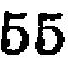55
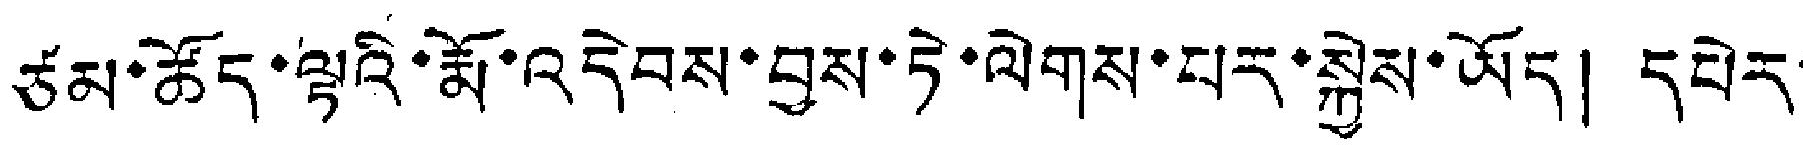ཙམ་ཚོད་ལྟའི་རྨོ་འདེབས་བྱས་ཏེ་ལེགས་པར་སྐྱེས་ཡོད། དཔེར་
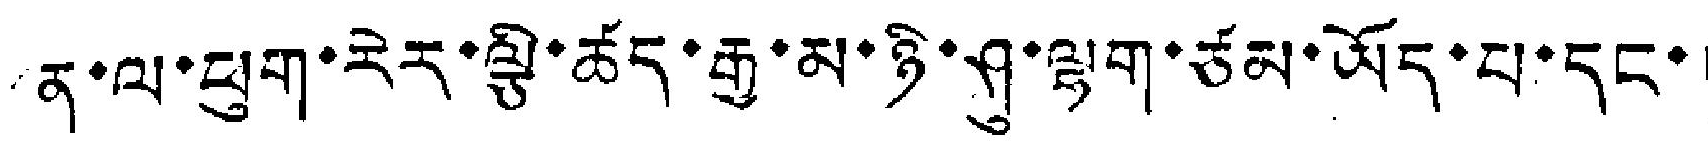ན་ལ་ཕུག་རེར་ལྕི་ཚད་རྒྱ་མ་ཉི་ཤུ་ལྷག་ཙམ་ཡོད་པ་དང་།
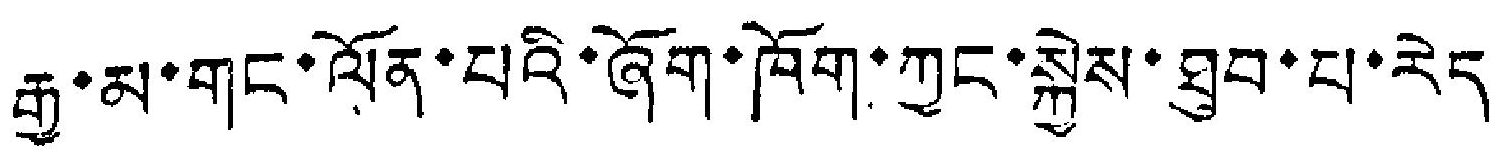རྒྱ་མ་གུང་ལོན་པའི་ཞོག་ཁོག་ཀྱང་སྐྱེས་ཐུབ་པ་རེད།
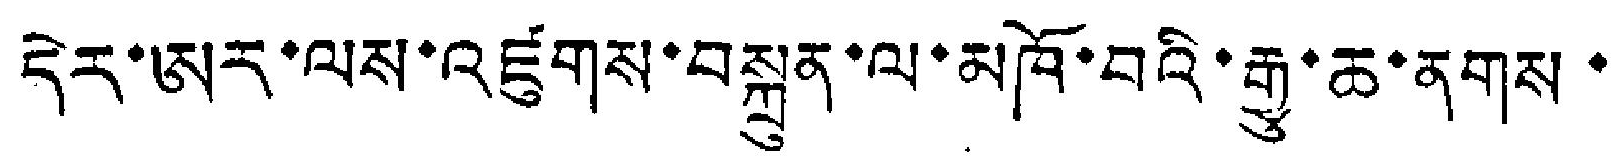དེར་ཨར་ལས་འཛུགས་བསྐྲུན་ལ་མཁོ་བའི་རྒྱུ་ཆ་ནགས་
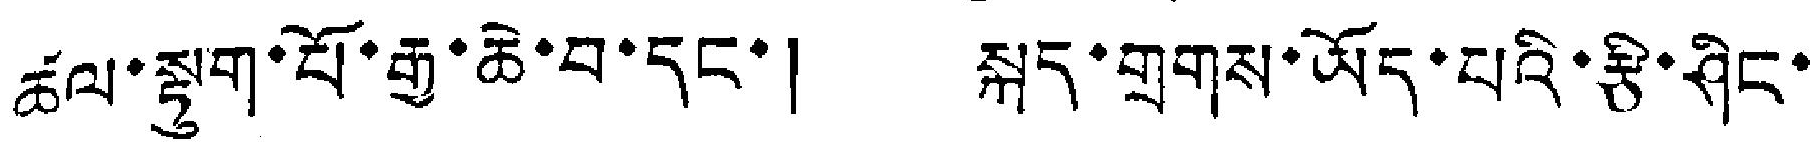ཚལ་སྟུག་པོ་རྒྱ་ཆེ་བ་དང་། སྐད་གྲགས་ཡོད་པའི་རྩི་ཤིང་
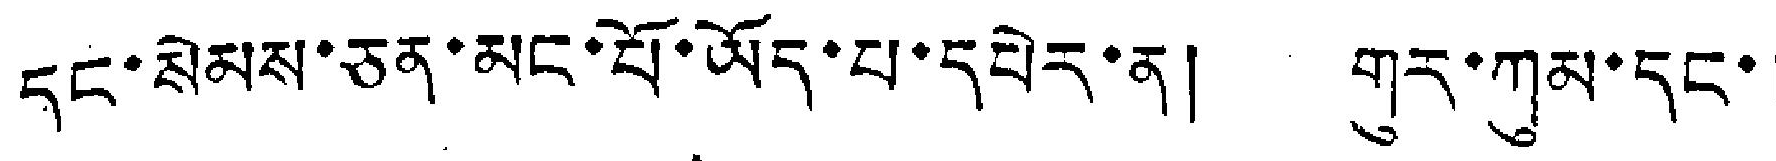དང་སེམས་ཅན་མང་པོ་ཡོད་པ་དཔེར་ན། གུར་ཀུམ་དང་
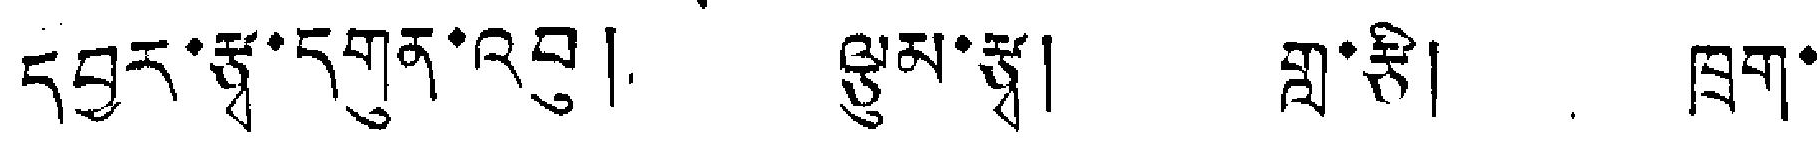དབྱར་རྩྭ་དགུན་འབུ། ལྕུམ་རྩྭ། གླ་རྩི། ཁྲག་
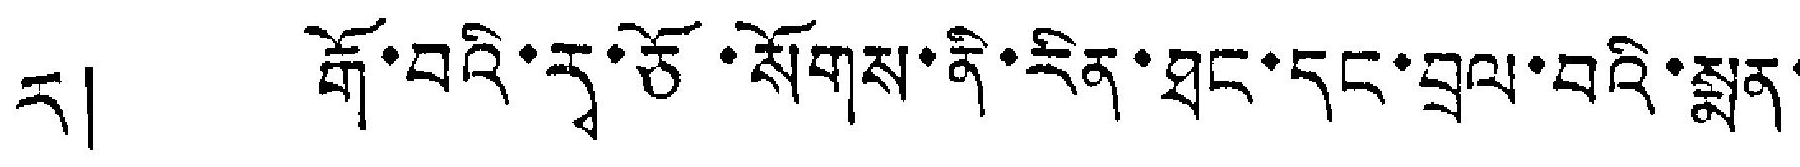ར། རྒོ་བའི་རྭ་ཅོ་སོགས་ནི་རིན་ཐང་དང་བྲལ་བའི་སྨན་
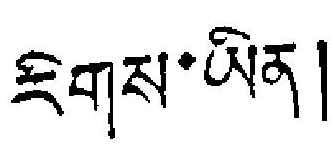རིགས་ཡིན།
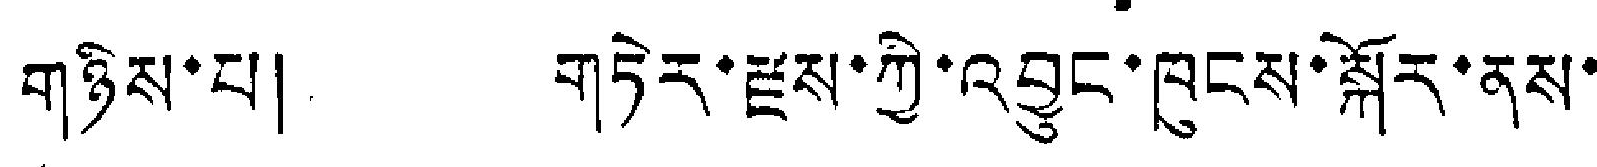གཉིས་པ། གཏེར་རྫས་ཀྱི་འབྱུང་ཁུངས་སྐོར་ནས་
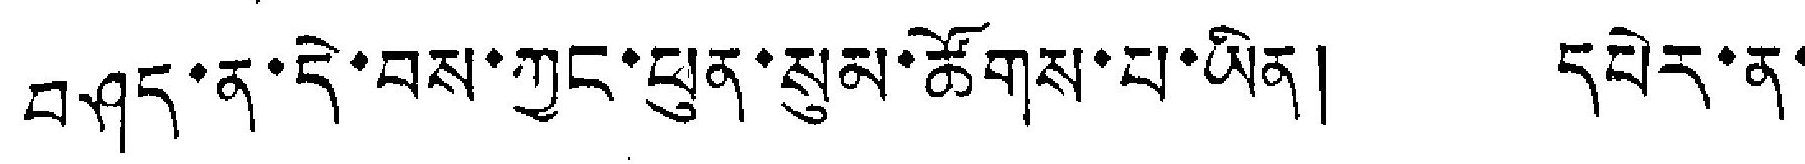བཤད་ན་དེ་བས་ཀྱང་ཕུན་སུམ་ཚོགས་པ་ཡིན། དཔེར་ན་
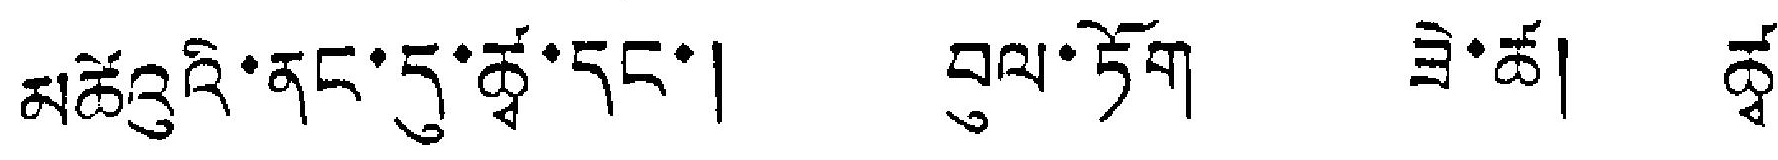མཚོའུའི་ནང་དུ་ཚྭ་དང་། བུལ་ཏོག ཟེ་ཚ། ཚྭ་
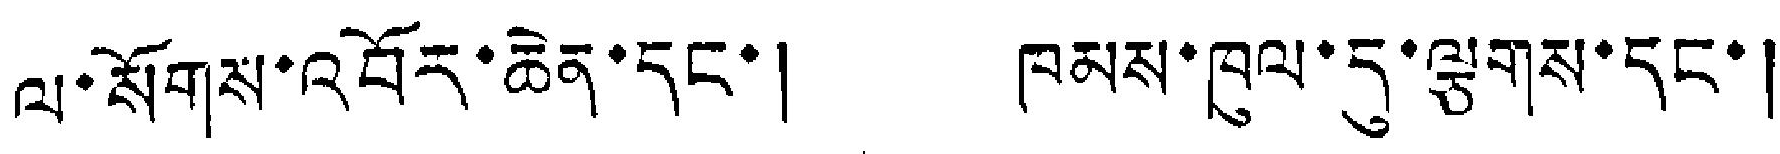ལ་སོགས་འབོར་ཆེན་དང་། ཁམས་ཁུལ་དུ་ལྕགས་དང་།
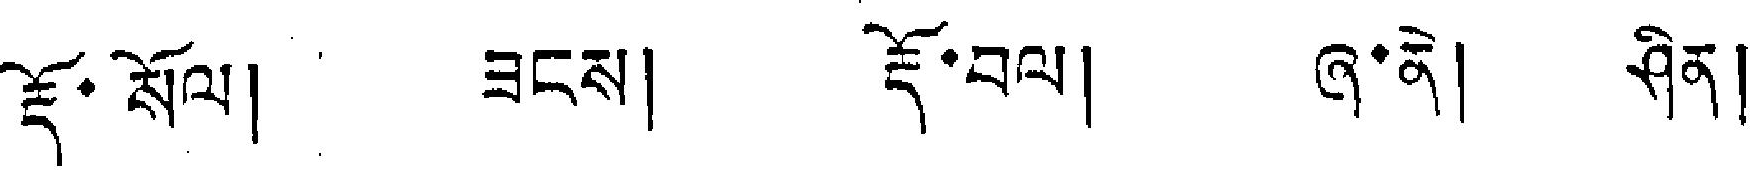རྡོ་སོལ། ཟངས། རྡོ་བལ། ཞ་ནེ། ཤིན།
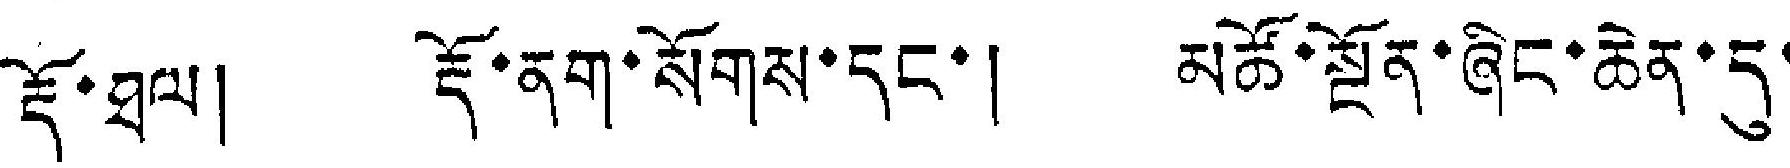རྡོ་ཐལ། རྡོ་ནག་སོགས་དང་། མཚོ་སྔོན་ཞིང་ཆེན་དུ་
